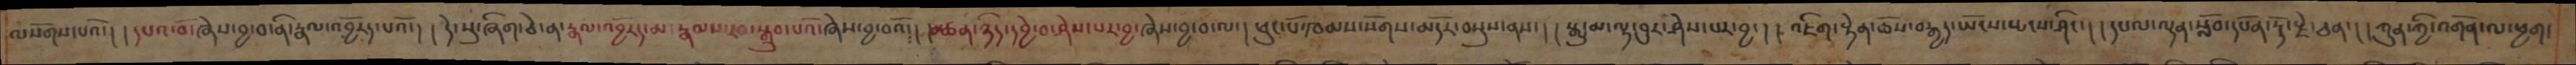ལསོགས་པའོ་། །དཔའ་བོ་ཞེས་བྱ་བ་ནི་རྣལ་འབྱོརད་པའོ་། །དེ་སུ་ཞིག་ཅེ་ན་རྣལ་འབྱོརད་མ་ རྣམས་རབ་སྒྲུབ་པའོ་ཞེས་བྱ་བའོ་། །མཚན་ཉིད་དབྱེ་བ་ཤེས་པར་བྱ་ཞེས་བྱ་བ་ལ་། ཕུང་པོ་ཁམས་སོགས་མདོར་བསྡུས་ནས་། །སྒྱུ་མ་ལྟ་བུར་ཤེས་པར་བྱ་། །འཇིག་རྟེན་ཆོས་བརྒྱད་ཡོངས་སྤངས་ཤིང་། །དཔལ་ལྡན་སློབ་དཔོན་རྡོ་རྗེ་ཅན་། །ཀུན་ཀྱི་འགོན་ལ་ཕྱག་
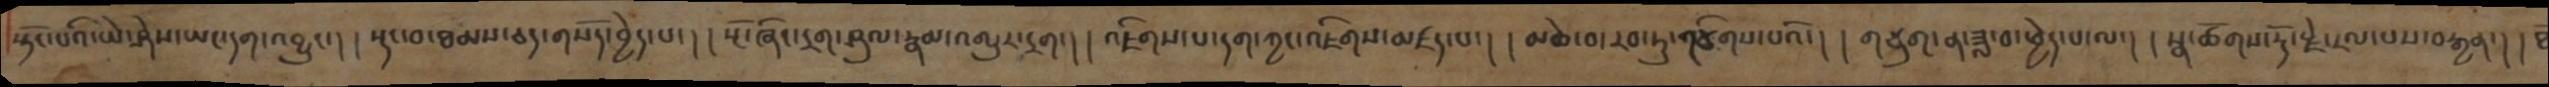སྟོང་པའི་ཡེ་ཤེས་ཡང་དག་འབྱུང་། །སྡང་བ་ཐམས་ཅད་གསོད་བྱེད་པ་། །སྔོ་ཞིང་དྲལ་ཤུལ་རྣམ་འགྱུར་དྲག་། །འཇིགས་པ་དག་ཀྱང་འཇིགས་མཛད་པ་། །མཆེ་བ་རབ་ཏུ་གཙིགས་པའོ་། །གཙུག་ན་ཟླ་བ་ཕྱེད་པ་ལ་། །སྣ་ཚོགས་རྡོ་རྗེ་རལ་པས་བརྒྱན་། །ཐོ
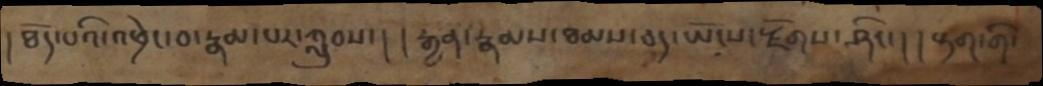།ཐོད་པའི་འཕྲེང་བ་རྣམ་པར་ཀླུབས་། །རྒྱན་རྣམས་ཐམས་ཅད་ཡོངས་རྫོགས་ཤིང་། །སྟག་གི་
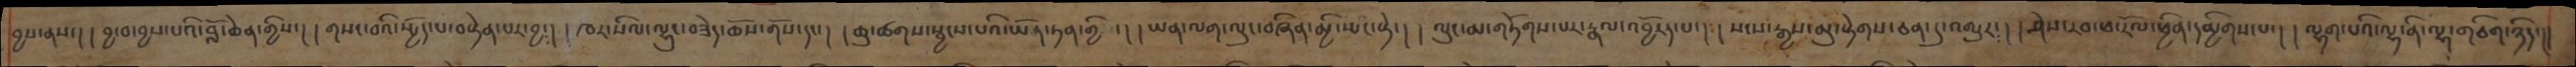བྱས་ནས་། །བྱ་བའི་བྱས་པའི་བློ་ཆེན་གྱིས་། །གསང་བའི་སྤྱོད་པ་བསྟེན་པར་བྱ༴། །ཁར་སིལ་ལྷུང་བཟེད་ཆོས་གོས་དང་། །ཆུ་ཚགས་སྦྱངས་པའི་ཡོན་ཏན་གྱི་། །ཡན་ལག་ལུང་བཞིན་མྱི་ཡང་སྟེ་། །ལུང་མ་གཏོགས་པར་རྣལ་འབྱོརད་པ་། །སངས་རྒྱས་མུ་སྟེགས་ཅན་དུ་འགྱུར༴། །ཤེས་རབ་ཕ་རོལ་ཕྱིན་དམིགས་པ་། །ལྷག་པའི་ལྷ་ནི་ལྷ་གཅིག་ཉིད་།།
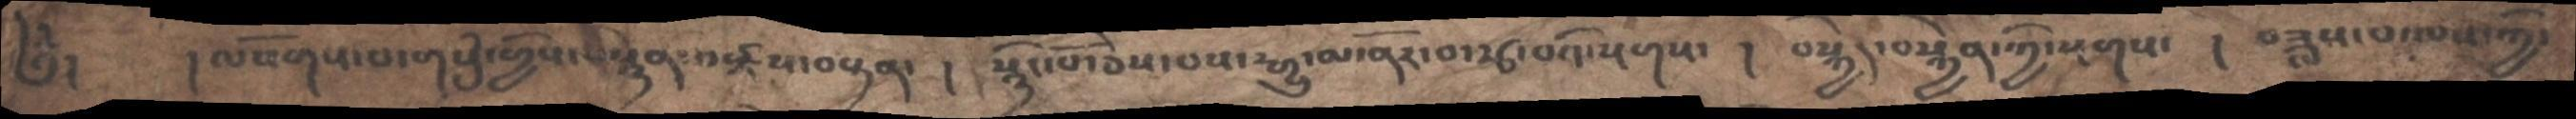༄ྃ།   །ལསོགས་པ་གསུཾ་གྱིས་བསྙེན་བརྫས་བསྟན་  ། སྙིང་པོ་ཅེས་པས་རྒྱུ་མ་ནོར་བ་རྩ་བའི་སྔགས་ ། བསྐྱེད་བསྐྱེན་གྱི་སྔགས  ། བཟླས་བ་ལས་ཀྱི་
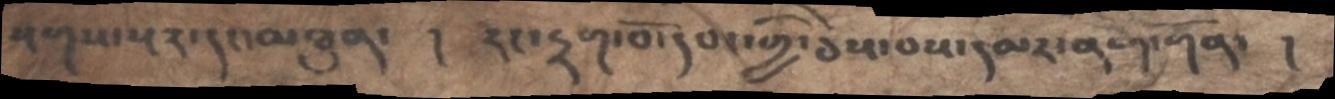སྔགས་སྔར་དང་མཐུན་ ། རང་དྲག་པོདབང་གྱི་ཅེས་བས་དམར་ནག་གོན་ །
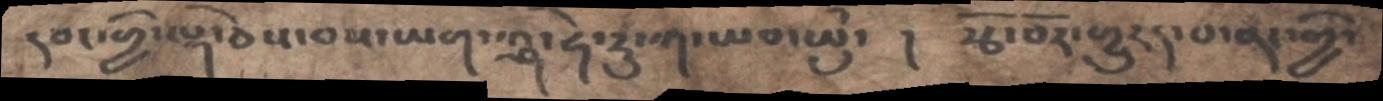དབང་གྱི་ལྷ་ཅེས་བས་ཡག་ཀྴ་ཧེ་རུ་ཀ་ཡབ་ཡུཾ་ ། རྩོ་བོར་གྱུརད་པ་ན་གྱི་
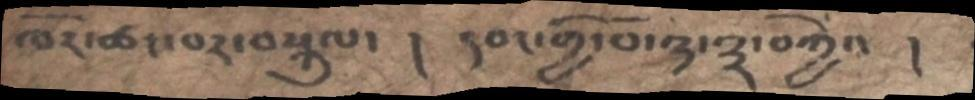ཁོར་ཚང་པར་བསྐུལ་ ། དབང་གྱི་བོ་༢་༣་བཀྱེའ  །
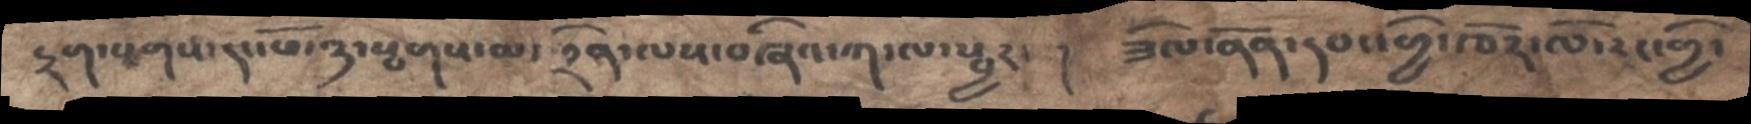དྲག་སྔགས་དང་ཕོ་ཉ་སྦགས་མ་བྲིན་ལས་བཞིའ་ཀ་ལ་སྦྱར་ ། ཟིལ་ནོན་དབང་གྱི་ཁོར་ལོ་རང་གྱི་
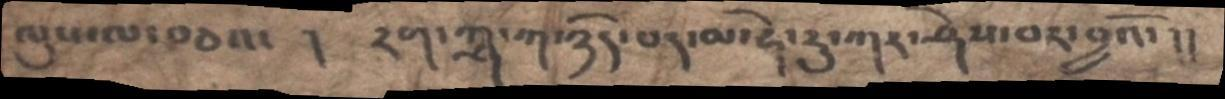ལུས་ལ་བཅའ་ ། རག་ཀྴ་ཀ་ཉེད་པད་མ་ཧེ་རུ་ཀར་ཤེས་བར་བྱའོ་།།
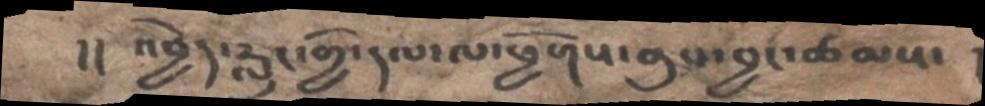།།འབྱེད་རླུང་གྱི་དལ་ལ་ཕྱོགས་ནུབ་བྱང་ཚམས་ །
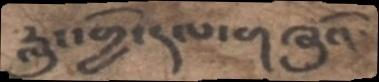རླུང་གྱི་དལ་གཞུའོ་
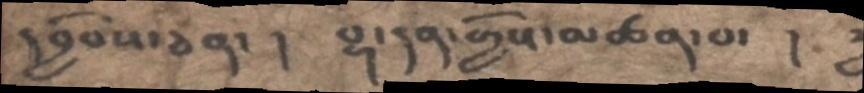དབྱེབས་ཅན་ །  བྷ་དན་གྱིས་མཚན་པ་ །  ཟླ
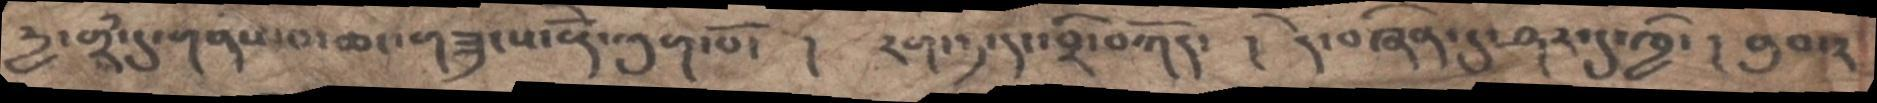རྱ་གྲཾ་དུ་གནས་པ་ཆང་གཟུངས་རྡོེ་ཁུག་པོ་ ། རག་ཏ་དང་བྲི་བཀོད་ ། དེ་བཞིན་དུ་ཤར་དུ་ཁྱི་ ། ནུབ་ཏུ
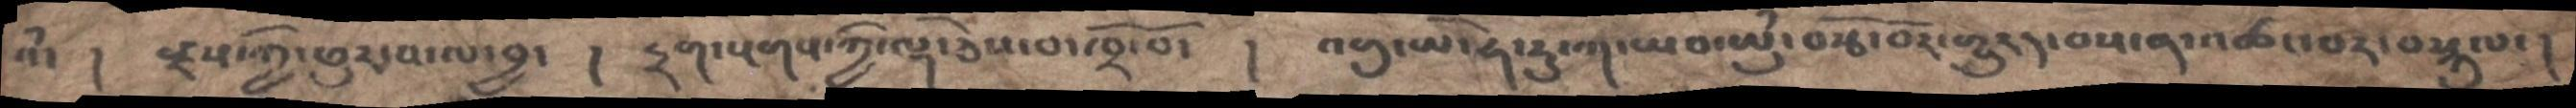འཾ་ །རྫས་ཀྱི་ཕུར་པ་ལ་བྱ་ ། དྲག་སྔགས་ཀྱི་ལྷ་ཅེས་པ་ཁྲོ་བོ་ ། འགུ་ཡ་ཧེ་རུ་ཀ་ཡབ་ཡུཾ་བརྩོ་བོར་གྱུརད་བས་ན་འཚང་བར་བསྐུལ་ །
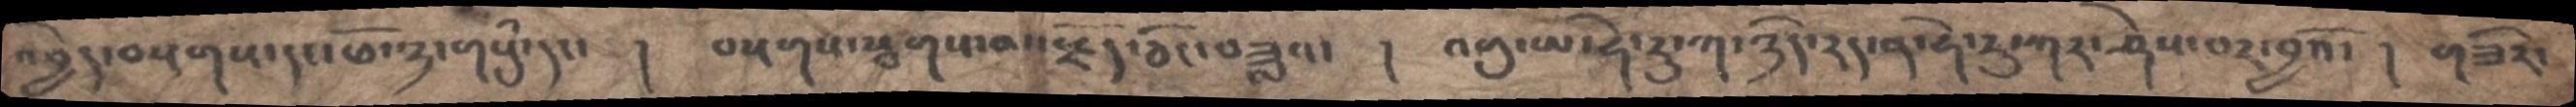འབྱེད་བསྔགས་དང་ཕོ་ཉ་གསུཾ་དང་།   བསྔགས་སྦགས་བ་་རྗོད་ཅིང་བཟླས་ ། འགུ་ཡ་ཧེ་རུ་ཀ་ཉིད་རད་ན་ཧེ་རུ་ཀར་ཤེས་པར་བྱའོ་ ། གཟེར་
